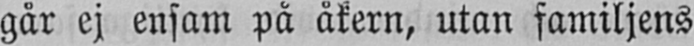går ej ensam på åkern, utan familjens
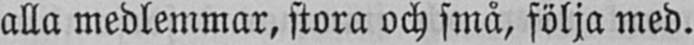alla medlemmar, stora och små, följa med.
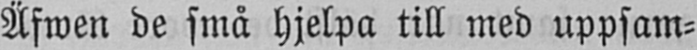Äfwen de små hjelpa till med uppsam-
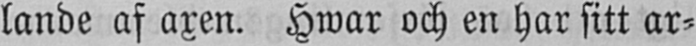lande af axen. Hwar och en har sitt ar-
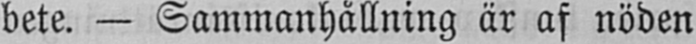bete. — Sammanhållning är af nöden
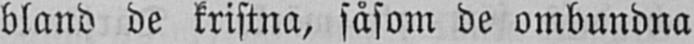bland de kristna, såsom de ombundna
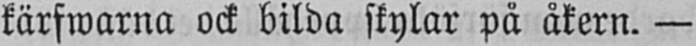kärfwarna ock bilda skylar på åkern. —
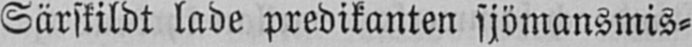Särskildt lade predikanten sjömansmis-
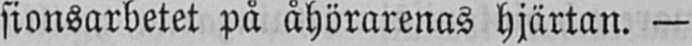sionsarbetet på åhörarenas hjärtan. —
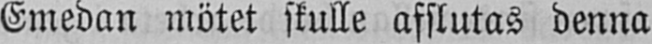Emedan mötet skulle afslutas denna
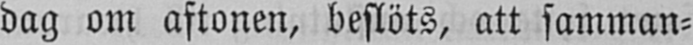dag om aftonen, beslöts, att samman-
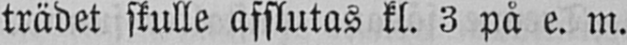trädet skulle afslutas kl. 3 på e. m.
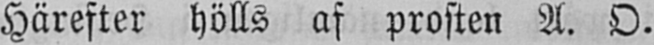Härefter hölls af prosten A. O.
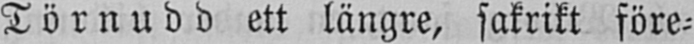Törnudd ett längre, sakrikt före-
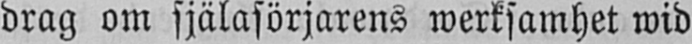drag om själasörjarens werksamhet wid
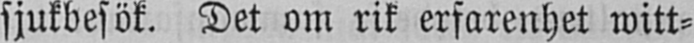sjukbesök. Det om rik erfarenhet witt-
